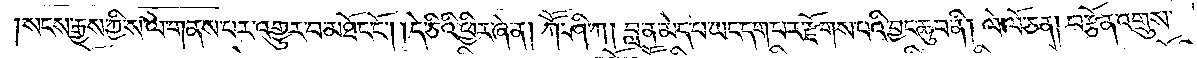སངས་རྒྱས་ཀྱི་ས་ལ་གནས་པར་འགྱུར་བ་མཐོང་ངོ༌། །དེ་ཅིའི་ཕྱིར་ཞེ་ན། ཀཽ་ཤི་ཀ། བླ་ན་མེད་པ་ཡང་དག་པར་རྫོགས་པའི་བྱང་ཆུབ་ནི། ལེ་ལོ་ཅན། བརྩོན་འགྲུས་
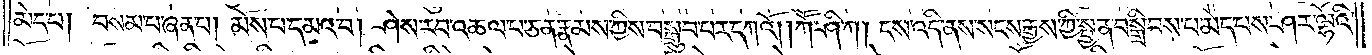མེད་པ། བསམ་པ་ཞན་པ། མོས་པ་དམའ་བ། ཤེས་རབ་འཆལ་པ་ཅན་རྣམས་ཀྱིས་བསྒྲུབ་པར་དཀའོ། །ཀཽ་ཤི་ཀ། ངས་འདི་ནས་སངས་རྒྱས་ཀྱི་སྤྱན་བསྒྲིབས་པ་མེད་པས་ཤར་ལྷོའི་
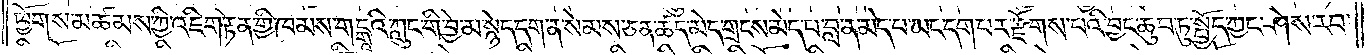ཕྱོགས་མཚམས་ཀྱི་འཇིག་རྟེན་གྱི་ཁམས་གངྒཱའི་ཀླུང་གི་བྱེ་མ་སྙེད་དག་ན་སེམས་ཅན་ཚད་མེད་གྲངས་མེད་པ་བླ་ན་མེད་པ་ཡང་དག་པར་རྫོགས་པའི་བྱང་ཆུབ་ཏུ་སྤྱོད་ཀྱང་ཤེས་རབ་
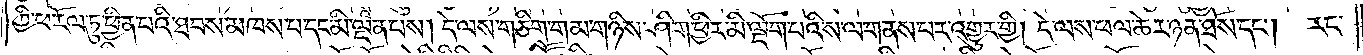ཀྱི་ཕ་རོལ་ཏུ་ཕྱིན་པའི་ཐབས་མཁས་པ་དང་མི་ལྡན་པས། དེ་ལས་གཅིག་གམ་གཉིས་ཤིག་ཕྱིར་མི་ལྡོག་པའི་ས་ལ་གནས་པར་འགྱུར་གྱི། དེ་ལས་ཕལ་ཆེར་ཉན་ཐོས་དང༌། རང་
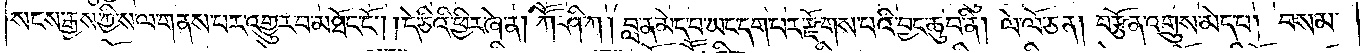སངས་རྒྱས་ཀྱི་ས་ལ་གནས་པར་འགྱུར་བ་མཐོང་ངོ༌། །དེ་ཅིའི་ཕྱིར་ཞེ་ན། ཀཽ་ཤི་ཀ། བླ་ན་མེད་པ་ཡང་དག་པར་རྫོགས་པའི་བྱང་ཆུབ་ནི། ལེ་ལོ་ཅན། བརྩོན་འགྲུས་མེད་པ། བསམ་
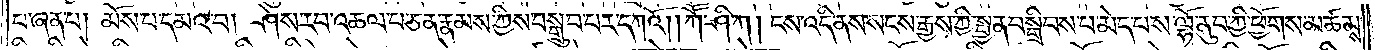པ་ཞན་པ། མོས་པ་དམའ་བ། ཤེས་རབ་འཆལ་པ་ཅན་རྣམས་ཀྱིས་བསྒྲུབ་པར་དཀའོ། །ཀཽ་ཤི་ཀ། ངས་འདི་ནས་སངས་རྒྱས་ཀྱི་སྤྱན་བསྒྲིབས་པ་མེད་པས་ལྷོ་ནུབ་ཀྱི་ཕྱོགས་མཚམས་
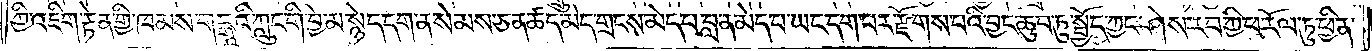ཀྱི་འཇིག་རྟེན་གྱི་ཁམས་གངྒཱའི་ཀླུང་གི་བྱེ་མ་སྙེད་དག་ན་སེམས་ཅན་ཚད་མེད་གྲངས་མེད་པ་བླ་ན་མེད་པ་ཡང་དག་པར་རྫོགས་པའི་བྱང་ཆུབ་ཏུ་སྤྱོད་ཀྱང་ཤེས་རབ་ཀྱི་ཕ་རོལ་ཏུ་ཕྱིན་
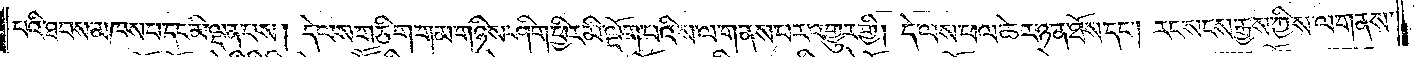པའི་ཐབས་མཁས་པ་དང་མི་ལྡན་པས། དེ་ལས་གཅིག་གམ་གཉིས་ཤིག་ཕྱིར་མི་ལྡོག་པའི་ས་ལ་གནས་པར་འགྱུར་གྱི། དེ་ལས་ཕལ་ཆེར་ཉན་ཐོས་དང༌། རང་སངས་རྒྱས་ཀྱི་ས་ལ་གནས་
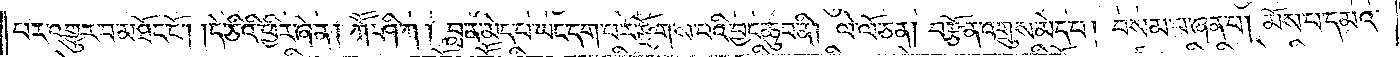པར་འགྱུར་བ་མཐོང་ངོ༌། །དེ་ཅིའི་ཕྱིར་ཞེ་ན། ཀཽ་ཤི་ཀ། བླ་ན་མེད་པ་ཡང་དག་པར་རྫོགས་པའི་བྱང་ཆུབ་ནི། ལེ་ལོ་ཅན། བརྩོན་འགྲུས་མེད་པ། བསམ་པ་ཞན་པ། མོས་པ་དམའ་
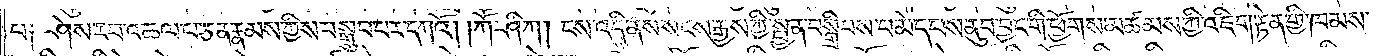པ༑ ཤེས་རབ་འཆལ་པ་ཅན་རྣམས་ཀྱིས་བསྒྲུབ་པར་དཀའོ། །ཀཽ་ཤི་ཀ། ངས་འདི་ནས་སངས་རྒྱས་ཀྱི་སྤྱན་བསྒྲིབས་པ་མེད་པས་ནུབ་བྱང་གི་ཕྱོགས་མཚམས་ཀྱི་འཇིག་རྟེན་གྱི་ཁམས་
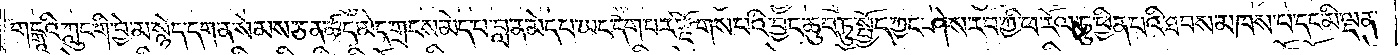གངྒཱའི་ཀླུང་གི་བྱེ་མ་སྙེད་དག་ན་སེམས་ཅན་ཚད་མེད་གྲངས་མེད་པ་བླ་ན་མེད་པ་ཡང་དག་པར་རྫོགས་པའི་བྱང་ཆུབ་ཏུ་སྤྱོད་ཀྱང་ཤེས་རབ་ཀྱི་ཕ་རོལ་ཏུ་ཕྱིན་པའི་ཐབས་མཁས་པ་དང་མི་ལྡན་
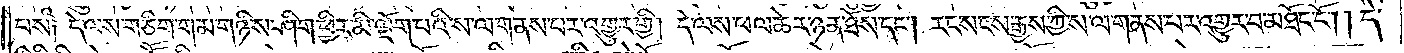པས༑ དེ་ལས་གཅིག་གམ་གཉིས་ཤིག་ཕྱིར་མི་ལྡོག་པའི་ས་ལ་གནས་པར་འགྱུར་གྱི། དེ་ལས་ཕལ་ཆེར་ཉན་ཐོས་དང༌། རང་སངས་རྒྱས་ཀྱི་ས་ལ་གནས་པར་འགྱུར་བ་མཐོང་ངོ༌། །དེ་
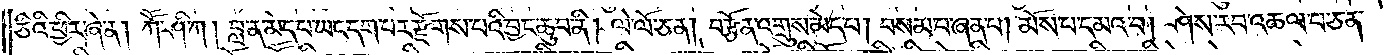ཅིའི་ཕྱིར་ཞེ་ན། ཀཽ་ཤི་ཀ། བླ་ན་མེད་པ་ཡང་དག་པར་རྫོགས་པའི་བྱང་ཆུབ་ནི། ལེ་ལོ་ཅན། བརྩོན་འགྲུས་མེད་པ། བསམ་པ་ཞན་པ། མོས་པ་དམའ་བ། ཤེས་རབ་འཆལ་པ་ཅན་
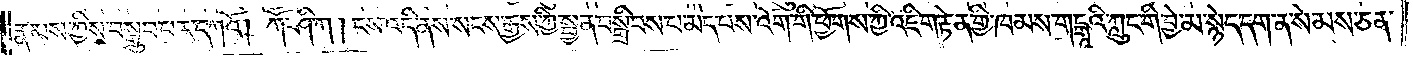རྣམས་ཀྱིས་བསྒྲུབ་པར་དཀའོ། །ཀཽ་ཤི་ཀ། ངས་འདི་ནས་སངས་རྒྱས་ཀྱི་སྤྱན་བསྒྲིབས་པ་མེད་པས་འོག་གི་ཕྱོགས་ཀྱི་འཇིག་རྟེན་གྱི་ཁམས་གངྒཱའི་ཀླུང་གི་བྱེ་མ་སྙེད་དག་ན་སེམས་ཅན་
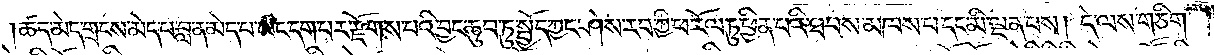ཚད་མེད་གྲངས་མེད་པ་བླ་ན་མེད་པ་ཡང་དག་པར་རྫོགས་པའི་བྱང་ཆུབ་ཏུ་སྤྱོད་ཀྱང་ཤེས་རབ་ཀྱི་ཕ་རོལ་ཏུ་ཕྱིན་པའི་ཐབས་མཁས་པ་དང་མི་ལྡན་པས ། དེ་ལས་གཅིག་
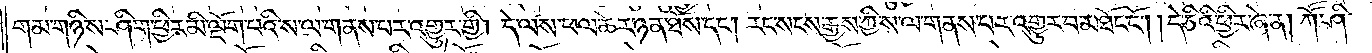གམ་གཉིས་ཤིག་ཕྱིར་མི་ལྡོག་པའི་ས་ལ་གནས་པར་འགྱུར་གྱི། དེ་ལས་ཕལ་ཆེར་ཉན་ཐོས་དང༌། རང་སངས་རྒྱས་ཀྱིས་ལ་གནས་པར་འགྱུར་བ་མཐོང་ངོ༌། །དེ་ཅིའི་ཕྱིར་ཞེ་ན། ཀཽ་ཤི་
